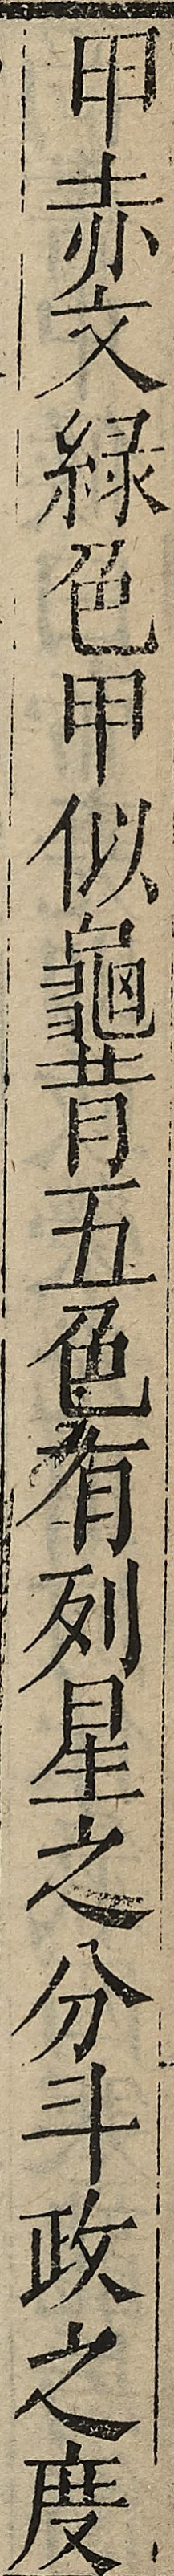甲赤文綠色甲似龜背五色有列星之分斗政之度
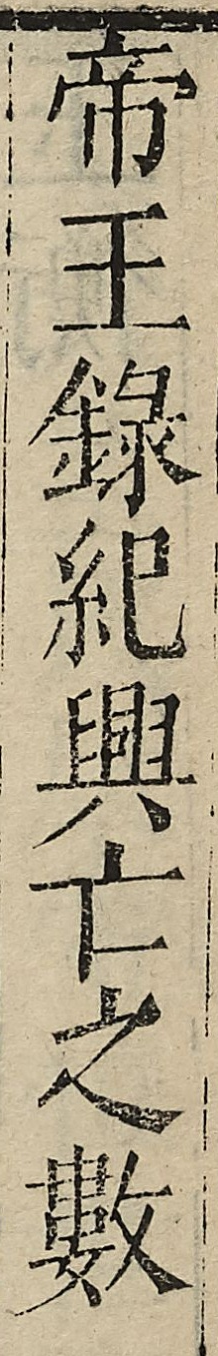帝王錄紀興亡之數
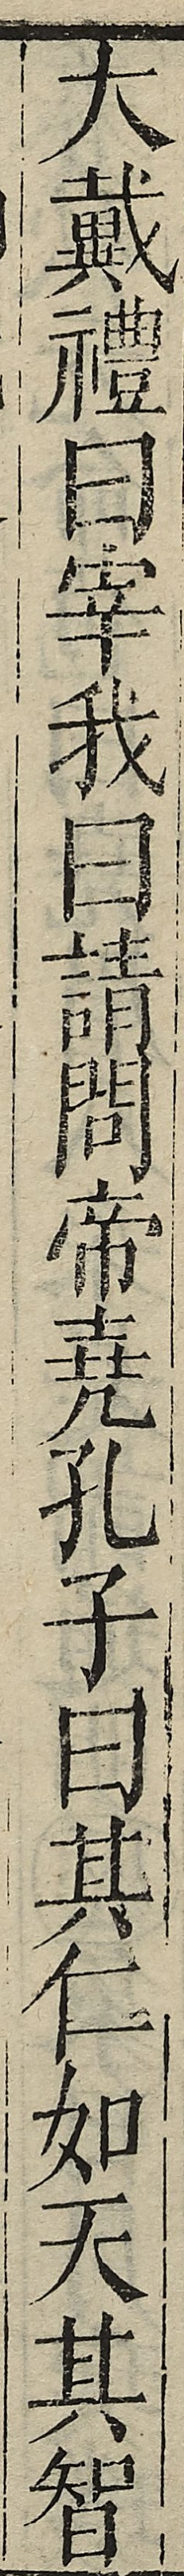大戴禮曰宰我曰請問帝堯孔子曰其仁如天其智
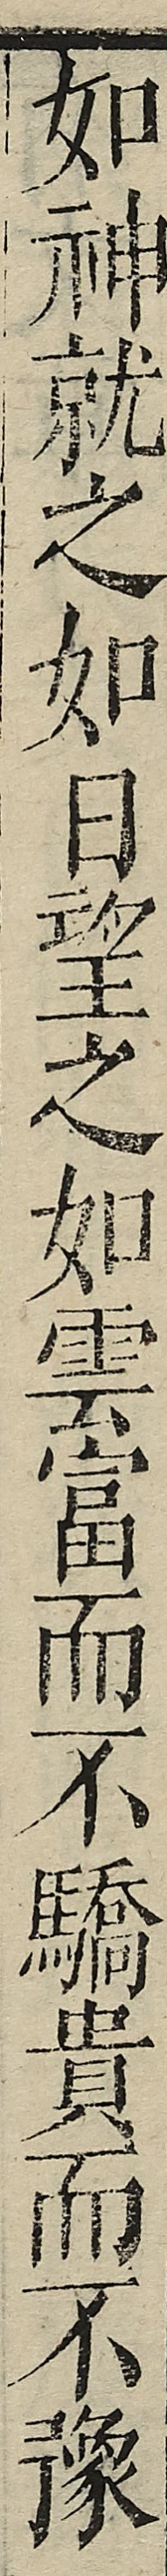如神就之如日望之如雲富而不驕貴而不豫
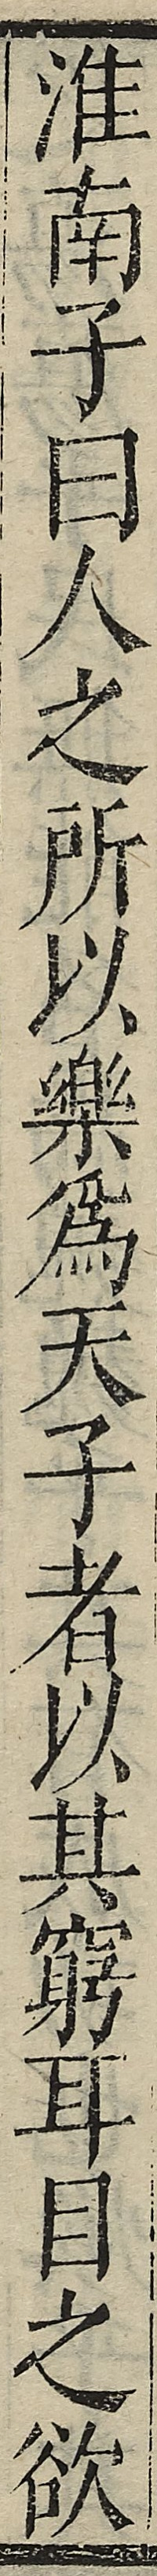淮南子曰人之所以樂為天子者以其窮耳目之欲
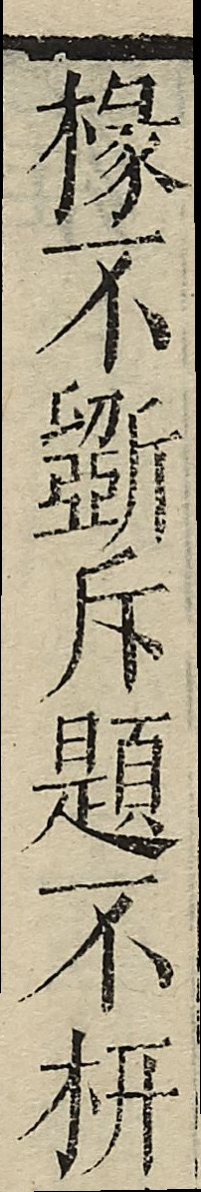椽不斵斥題不枅
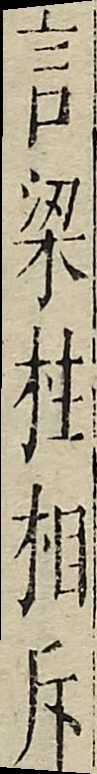言梁柱相斥
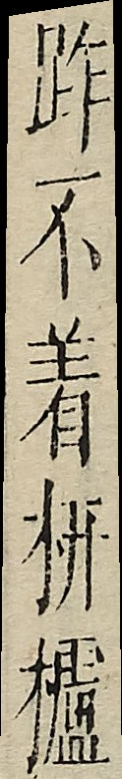距不著枅櫨
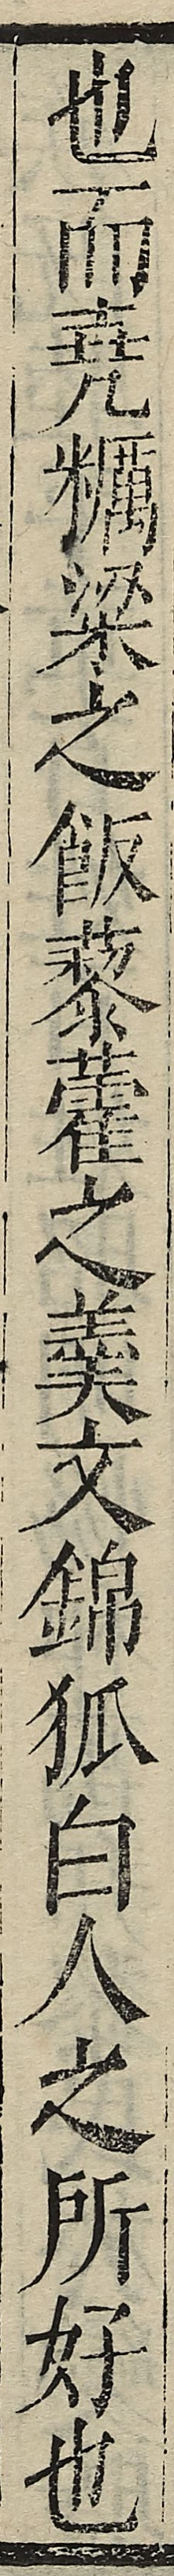也而堯糲梁之飯藜藿之羹文錦狐白人之所好也
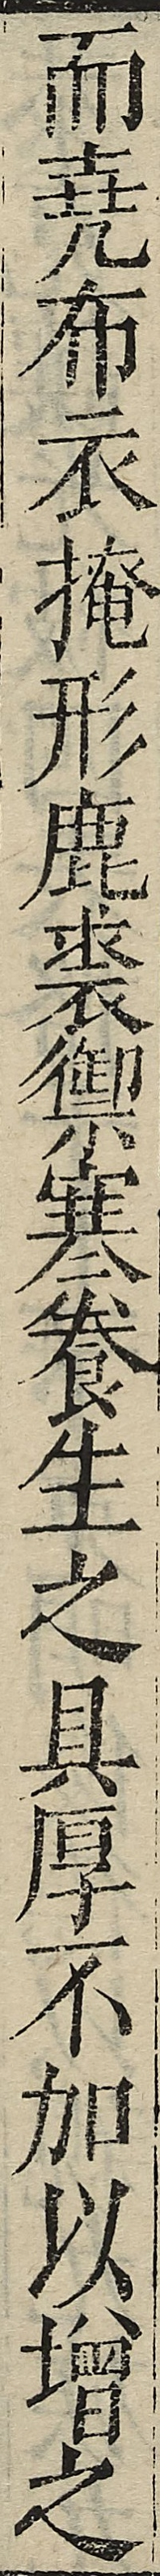而堯布衣掩形鹿裘禦寒養生之具厚不加以增之
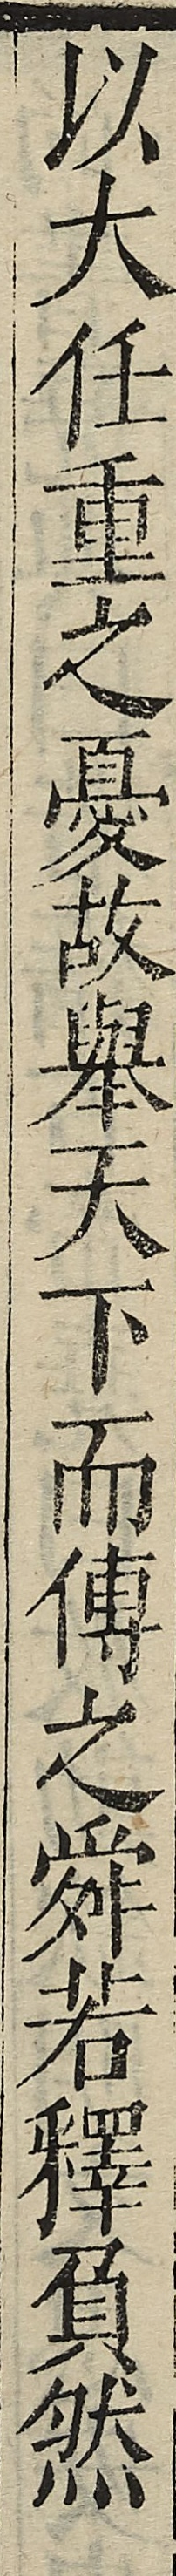以大任重之憂故舉天下而傳之舜若釋負然
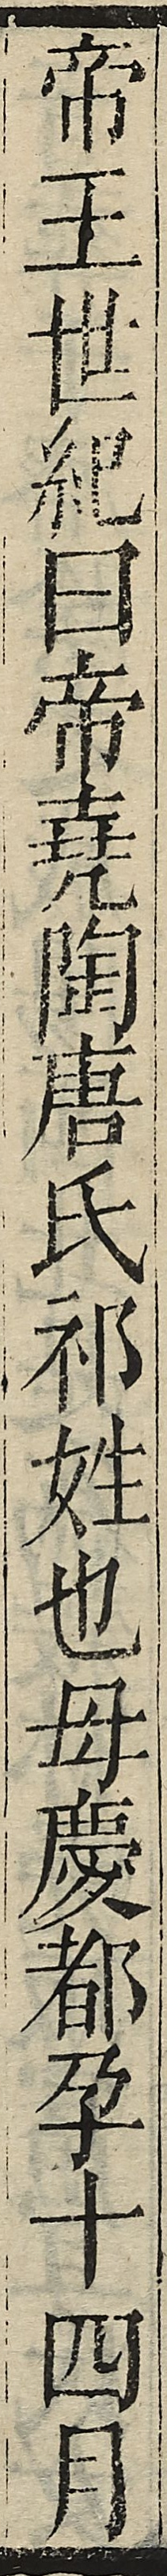帝王世紀曰帝堯陶唐氏祁姓也母慶都孕十四月
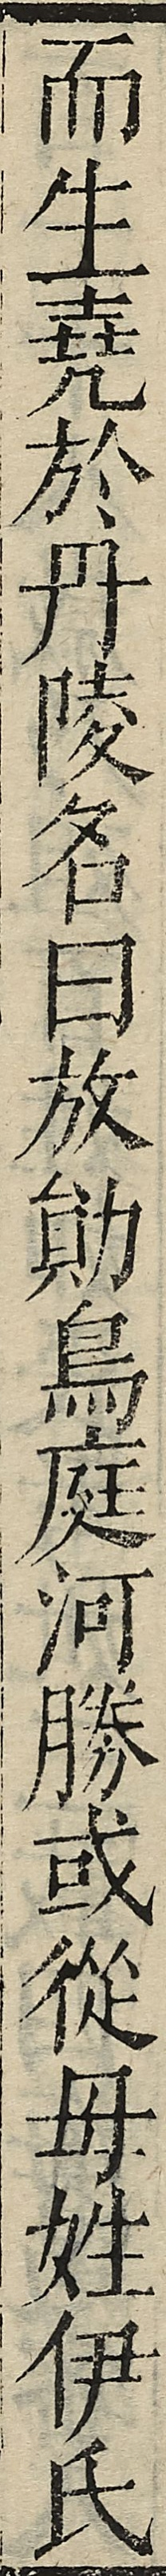而生堯於丹陵名曰放勛鳥庭河勝或從母姓伊氏
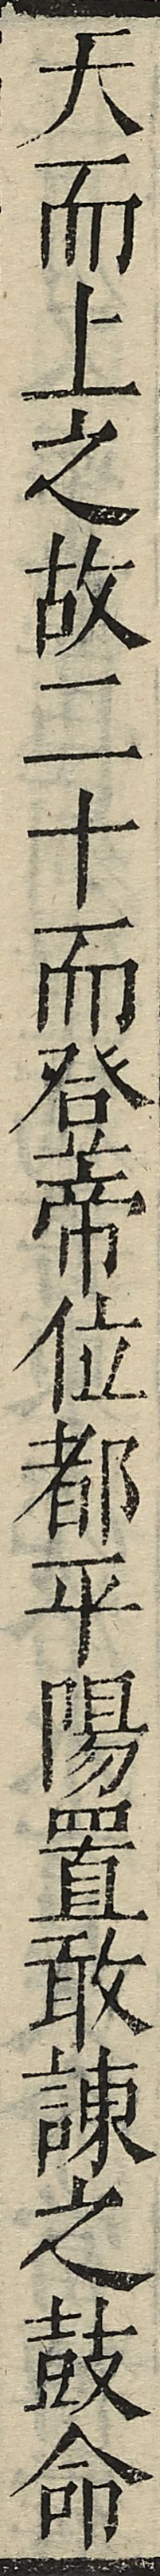天而上之故二十而登帝位都平陽置敢諫之鼓命
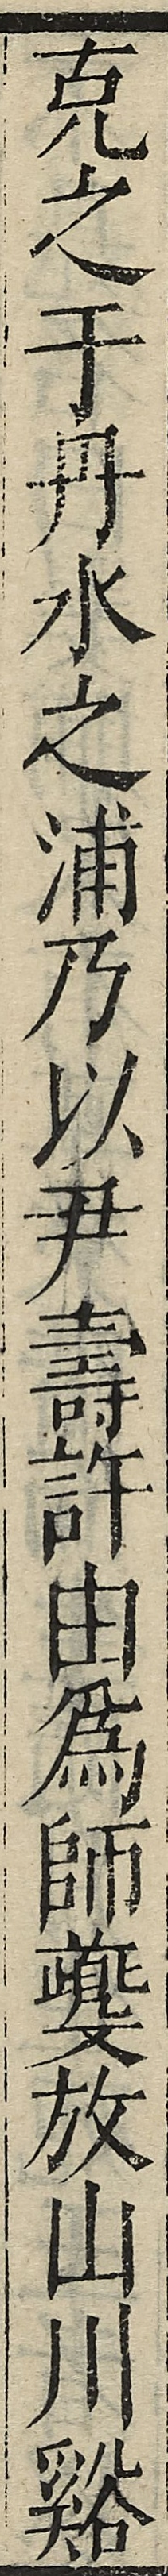克之于丹水之浦乃以尹壽許由為師夔放山川谿
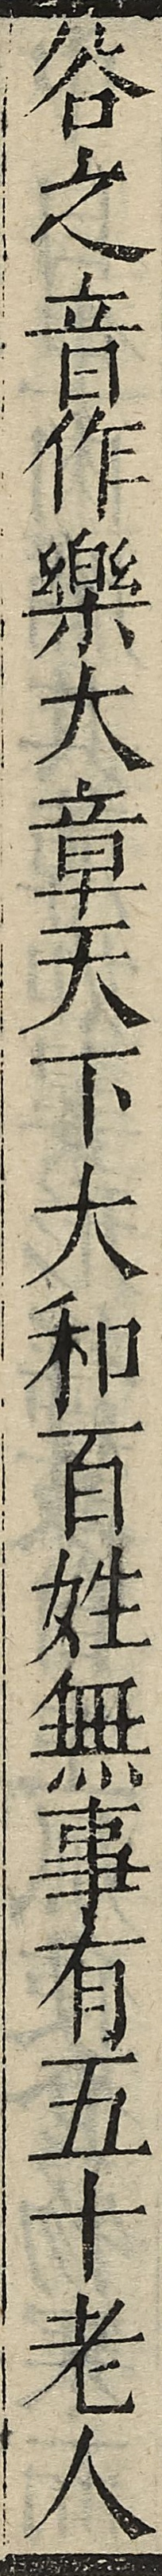谷之音作樂大章天下大和百姓無事有五十老人
